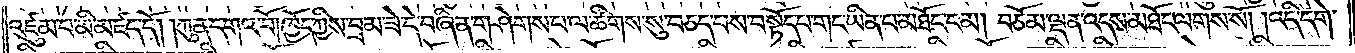འཛུམ་པ་མི་མཛད་དོ། །ཀུན་དགའ་བོ། ཁྱོད་ཀྱིས་བྲམ་ཟེ་དེ་བཞིན་གཤེགས་པ་ལ་ཚིགས་སུ་བཅད་པས་བསྟོད་པ་གང་ཡིན་པ་མཐོང་ངམ། བཅོམ་ལྡན་འདས་མཐོང་ལགས་སོ། །འདི་དགེ་
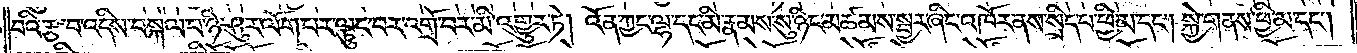བའི་རྩ་བ་འདིས་བསྐལ་བ་ཉི་ཤུར་ལོག་པར་ལྟུང་བར་འགྲོ་བར་མི་འགྱུར་ཏེ། འོན་ཀྱང་ལྷ་དང་མི་རྣམས་སུ་ཉིང་མཚམས་སྦྱར་ཞིང་འཁོར་ནས་སྲིད་པ་ཕྱི་མ་དང༌། སྐྱེ་གནས་ཕྱི་མ་དང༌།
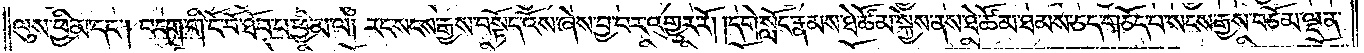ལུས་ཕྱི་མ་དང༌། བདག་གི་ངོ་བོ་ཐོབ་པ་ཕྱི་མ་ལ། རང་སངས་རྒྱས་བསྟོད་འོས་ཞེས་བྱ་བར་འགྱུར་རོ། །དགེ་སློང་རྣམས་ཐེ་ཚོམ་སྐྱེས་ནས་ཐེ་ཚོམ་ཐམས་ཅད་གཅོད་པ་སངས་རྒྱས་བཅོམ་ལྡན་
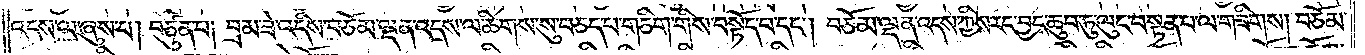འདས་ལ་ཞུས་པ། བཙུན་པ། བྲམ་ཟེ་འདིས་བཅོམ་ལྡན་འདས་ལ་ཚིགས་སུ་བཅད་པ་གཅིག་གིས་བསྟོད་པ་དང༌། བཅོམ་ལྡན་འདས་ཀྱིས་རང་བྱང་ཆུབ་ཏུ་ལུང་བསྟན་པ་ལ་གཟིགས། བཅོམ་
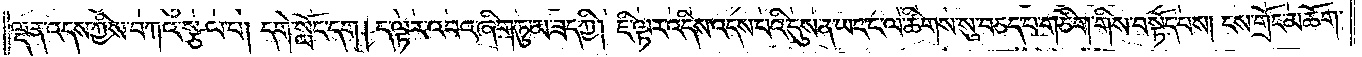ལྡན་འདས་ཀྱིས་བཀའ་སྩལ་པ། དགེ་སློང་དག། དེ་ལྟར་འབའ་ཞིག་ཏུ་མ་ཟད་ཀྱི། ཇི་ལྟར་འདིས་འདས་པའི་དུས་ན་ཡང་ང་ལ་ཚིགས་སུ་བཅད་པ་གཅིག་གིས་བསྟོད་པས། ངས་གྲོང་མཆོག་
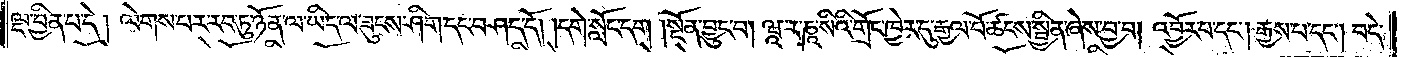ལྔ་བྱིན་པ་དེ། ལེགས་པར་རབ་ཏུ་ཉོན་ལ་ཡིད་ལ་ཟུངས་ཤིག་དང་བཤད་དོ། །དགེ་སློང་དག །སྔོན་བྱུང་བ། ཝཱ་ར་ཎཱ་སིའི་གྲོང་ཁྱེར་དུ་རྒྱལ་པོ་ཚངས་སྦྱིན་ཞེས་བྱ་བ། འབྱོར་པ་དང༌། རྒྱས་པ་དང༌། བདེ་
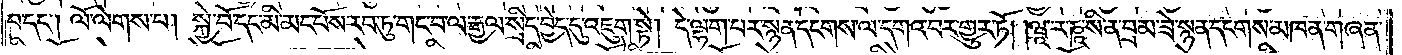བ་དང༌། ལོ་ལེགས་པ། སྐྱེ་བོ་དང་མི་མང་པོས་རབ་ཏུ་གང་བ་ལ་རྒྱལ་སྲིད་བྱེད་དུ་འཇུག་སྟེ། དེ་ལྷག་པར་སྙན་དངགས་ལ་དགའ་བར་གྱུར་ཏོ། །ཝཱ་ར་ཎཱ་སི་ན་བྲམ་ཟེ་སྙན་དངགས་མཁན་གཞན་
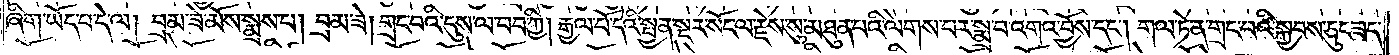ཞིག་ཡོད་པ་དེ་ལ། བྲམ་ཟེ་མོས་སྨྲས་པ། བྲམ་ཟེ། གྲང་བའི་དུས་ལ་བབ་ཀྱི། རྒྱལ་པོ་དེའི་སྤྱན་སྔར་སོང་ལ་རྗེས་སུ་མཐུན་པའི་ལེགས་པར་སྨྲ་བ་འགའ་བྱོས་དང༌། གལ་ཏེ་ན་གྲང་བའི་སྐྱབས་ཅུང་ཟད་
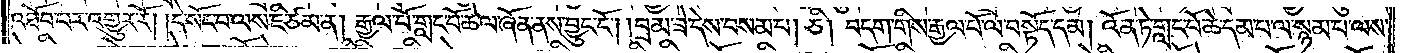འཐོབ་པར་འགྱུར་རོ། །དེ་སོང་བ་ལས་ཇི་ཙམ་ན། རྒྱལ་པོ་གླང་པོ་ཆེ་ལ་ཞོན་ནས་བྱུང་ངོ༌། །བྲམ་ཟེ་དེས་བསམ་པ། ཅི། བདག་གིས་རྒྱལ་པོ་ལ་བསྟོད་དམ། འོན་ཏེ་གླང་པོ་ཆེ་དམ་པ་ལ་སྙམ་པ་ལས་
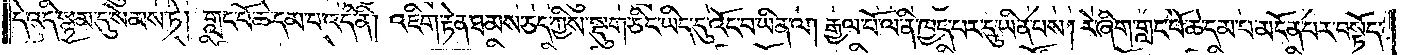དེ་འདི་སྙམ་དུ་སེམས་ཏེ། གླང་པོ་ཆེ་དམ་པ་འདི་ནི། འཇིག་རྟེན་ཐམས་ཅད་ཀྱིས་སྡུག་ཅིང་ཡིད་དུ་འོང་བ་ཡིན་ལ། རྒྱལ་པོ་ལ་ནི་ཁྱད་པར་དུ་ཡིན་པས། རེ་ཞིག་གླང་པོ་ཆེ་དམ་པ་མངོན་པར་བསྟོད་
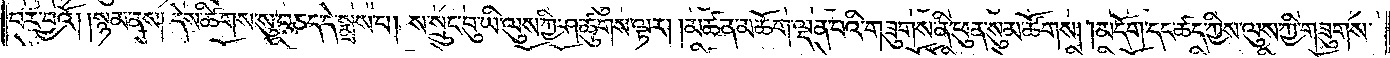བར་བྱའོ། །སྙམ་ནས། དེས་ཚིགས་སུ་བཅད་དེ་སྨྲས་པ། ས་སྲུང་བུ་ཡི་ལུས་ཀྱི་ཤ་ཚུགས་ལྟར། །མཚན་མཆོག་ལྡན་པའི་གཟུགས་ནི་ཕུན་སུམ་ཚོགས། །མདོག་དང་ཚད་ཀྱིས་ལུས་ཀྱི་གཟུགས་
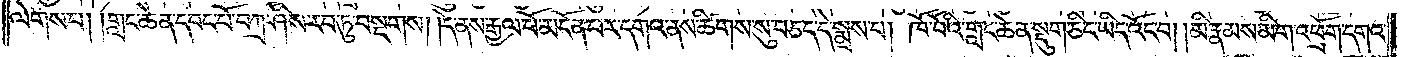ལེགས་པ། །གླང་ཆེན་དབང་པོ་བཀྲ་ཤིས་རབ་ཏུ་བསྔགས། །དེ་ནས་རྒྱལ་པོ་མངོན་པར་དགའ་ནས་ཚིགས་སུ་བཅད་དེ་སྨྲས་པ། ཁོ་བོའི་གླང་ཆེན་སྡུག་ཅིང་ཡིད་འོང་བ། །མི་རྣམས་མིག་འཕྲོག་དགའ་
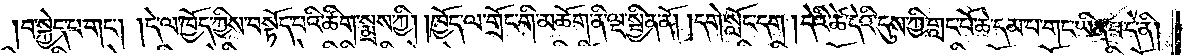།བ་སྐྱེད་པ་གང༌། །དེ་ལ་ཁྱོད་ཀྱིས་བསྟོད་པའི་ཚིག་སྨྲས་ཀྱི། །ཁྱོད་ལ་གྲོང་གི་མཆོག་ནི་ལྔ་སྦྱིན་ནོ། །དགེ་སློང་དག །དེའི་ཚེ་དེའི་དུས་ཀྱི་གླང་པོ་ཆེ་དམ་པ་གང་ཡིན་པ་དེ་ནི།
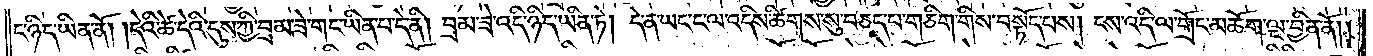ང་ཉིད་ཡིན་ནོ། །དེའི་ཚེ་དེའི་དུས་ཀྱི་བྲམ་ཟེ་གང་ཡིན་པ་དེ་ནི། བྲམ་ཟེ་འདི་ཉིད་ཡིན་ཏེ། དེ་ན་ཡང་ང་ལ་འདིས་ཚིགས་སུ་བཅད་པ་གཅིག་གིས་བསྟོད་པས། ངས་འདི་ལ་གྲོང་མཆོག་ལྔ་བྱིན་ནོ། །
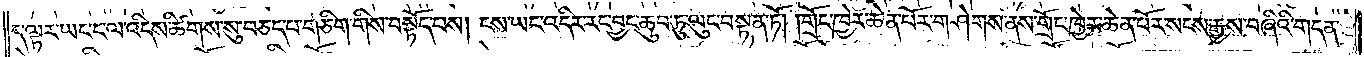ད་ལྟར་ཡང་ང་ལ་འདིས་ཚིགས་སུ་བཅད་པ་གཅིག་གིས་བསྟོད་པས། ངས་ཡང་འདིར་རང་བྱང་ཆུབ་ཏུ་ལུང་བསྟན་ཏོ། །གྲོང་ཁྱེར་ཆེན་པོར་གཤེགས་ནས་གྲོང་ཁྱེར་ཆེན་པོར་སངས་རྒྱས་བཞིའི་གདན་
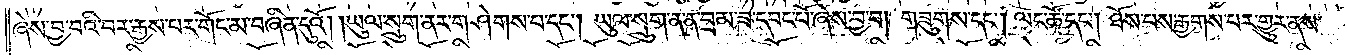ཞེས་བྱ་བའི་བར་རྒྱས་པར་གོང་མ་བཞིན་དུའོ། །ཡུལ་སྲུག་ནར་གཤེགས་པ་དང༌། ཡུལ་སྲུག་ན་ན་བྲམ་ཟེ་དབང་པོ་ཞེས་བྱ་བ། གཟུགས་དང༌། ལང་ཚོ་དང༌། ཐོས་པས་རྒྱགས་པར་གྱུར་ནས་
